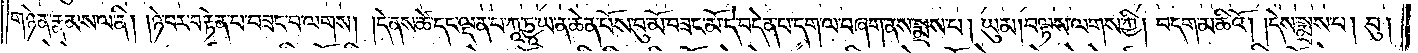གཉེན་རྣམས་ལ་ནི། །ཉེ་བར་བརྟེན་པ་བཟང་བ་ལགས། །དེ་ནས་ཚེ་དང་ལྡན་པ་ཀཱ་ཏྱཱ་ཡ་ན་ཆེན་པོས་བུ་མོ་བཟང་མོ་དེ་བདེན་པ་དག་ལ་བཞག་ནས་སྨྲས་པ། ཡུམ། བལྟས་ལགས་ཀྱི། བདག་མཆིའོ། །དེས་སྨྲས་པ། བུ།
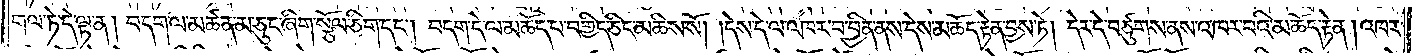གལ་ཏེ་དེ་ལྟ་ན། བདག་ལ་མཚན་མ་ཅུང་ཞིག་སྩོལ་ཅིག་དང༌། བདག་དེ་ལ་མཆོད་པ་བགྱིད་ཅིང་མཆིས་སོ། །དེས་དེ་ལ་འཁར་བ་བྱིན་ནས་དེས་མཆོད་རྟེན་བྱས་ཏེ། དེར་དེ་བཙུགས་ནས་འཁར་བའི་མཆོད་རྟེན། འཁར་
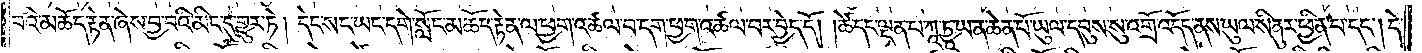བའི་མཆོད་རྟེན་ཞེས་བྱ་བའི་མིང་དུ་གྱུར་ཏེ། དེང་སང་ཡང་དགེ་སློང་མཆོད་རྟེན་ལ་ཕྱག་འཚལ་བ་དག་ཕྱག་འཚལ་བར་བྱེད་དོ། །ཚེ་དང་ལྡན་པ་ཀཱ་ཏྱཱ་ཡ་ན་ཆེན་པོ་ཡུལ་དབུས་སུ་འགྲོ་འདོད་ནས་ཡུལ་སི་ནུར་ཕྱིན་པ་དང༌། དེ་
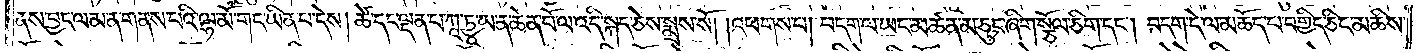ནས་བྱང་ལམ་ན་གནས་པའི་ལྷ་མོ་གང་ཡིན་པ་དེས། ཚེ་དང་ལྡན་པ་ཀཱ་ཏྱཱ་ཡ་ན་ཆེན་པོ་ལ་འདི་སྐད་ཅེས་སྨྲས་སོ། །འཕགས་པ། བདག་ལ་ཡང་མཚན་མ་ཅུང་ཞིག་སྩོལ་ཅིག་དང༌། བདག་དེ་ལ་མཆོད་པ་བགྱིད་ཅིང་མཆིས་
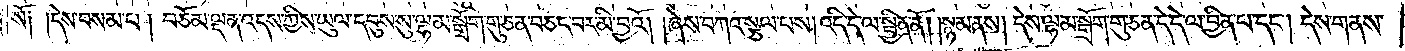སོ༑ །དེས་བསམ་པ། བཅོམ་ལྡན་འདས་ཀྱིས་ཡུལ་དབུས་སུ་ལྷམ་སྒྲོག་གུ་ཅན་བཅང་བར་མི་བྱའོ། །ཞེས་བཀའ་སྩལ་པས། འདི་དེ་ལ་སྦྱིན་ནོ། །སྙམ་ནས། དེས་ལྷམ་སྒྲོག་གུ་ཅན་དེ་དེ་ལ་བྱིན་པ་དང༌། དེས་གནས་
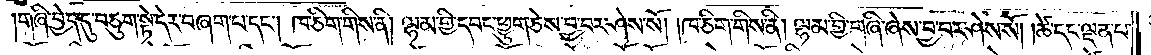།གཞི་བྱེད་དུ་བཅུག་སྟེ་དེར་བཞག་པ་དང༌། ཁ་ཅིག་གིས་ནི། ལྷམ་གྱི་དབང་ཕྱུག་ཅེས་བྱ་བར་ཤེས་སོ། ཁ་ཅིག་གིས་ནི། ལྷམ་གྱི་གཞི་ཞེས་བྱ་བར་ཤེས་སོ། །ཚེ་དང་ལྡན་པ་
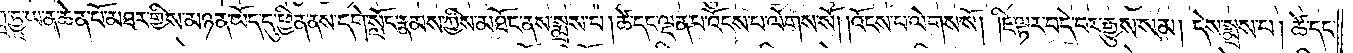ཀཱ་ཏྱཱ་ཡ་ན་ཆེན་པོ་མཐར་གྱིས་མཉན་ཡོད་དུ་ཕྱིན་ནས་དགེ་སློང་རྣམས་ཀྱིས་མཐོང་ནས་སྨྲས་པ། ཚེ་དང་ལྡན་པ་འོངས་པ་ལེགས་སོ་།འོངས་པ་ལེགས་སོ། །ཇི་ལྟར་བདེ་བར་རྒྱུས་སམ། དེས་སྨྲས་པ། ཚེ་དང་
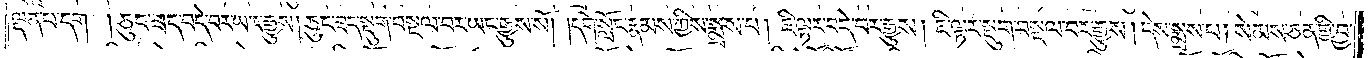ལྡན་པ་དག །ཅུང་ཟད་བདེ་བར་ཡང་རྒྱུས། ཅུང་ཟད་སྡུག་བསྔལ་བར་ཡང་རྒྱུས་སོ། །དགེ་སློང་རྣམས་ཀྱིས་སྨྲས་པ། ཇི་ལྟར་བདེ་བར་རྒྱུས། ཇི་ལྟར་སྡུག་བསྔལ་བར་རྒྱུས། དེས་སྨྲས་པ། སེམས་ཅན་གྱི་བྱ་
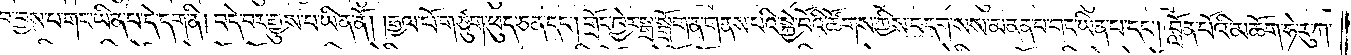བ་བྱས་པ་གང་ཡིན་པ་དེ་དག་ནི། བདེ་བར་རྒྱུས་པ་ཡིན་ནོ། །རྒྱལ་པོ་གཙུག་ཕུད་ཅན་དང༌། གྲོང་ཁྱེར་སྒྲ་སྒྲོག་ན་གནས་པའི་སྐྱེ་བོའི་ཚོགས་ཀྱིས་བདག་སས་མནན་པ་གང་ཡིན་པ་དང༌། བློན་པོའི་མཆོག་ཧེ་རུ་ཀ་
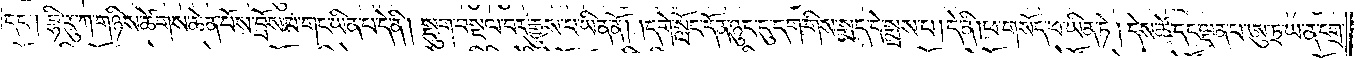དང༌། བྷི་རུ་ཀ་གཉིས་ཚེགས་ཆེན་པོས་བྲོས་པ་གང་ཡིན་པ་དེ་ནི། སྡུག་བསྔལ་བར་རྒྱུས་པ་ཡིན་ནོ། །དགེ་སློང་དོན་ཉུང་ངུ་དག་གིས་སྨད་དེ་སྨྲས་པ། དེ་ནི། ཕ་གསོད་པ་ཡིན་ཏེ། དེས་ཚེ་དང་ལྡན་པ་ཨུ་ཏྲ་ཡ་ན་དགྲ་
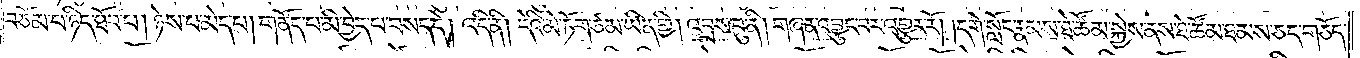བཅོམ་པ་ཉིད་ཐོབ་པ། ཉེས་པ་མེད་པ། གནོད་པ་མི་བྱེད་པ་བསད་དེ། འདི་ནི། དེའི་མེ་ཏོག་ཙམ་ཡིན་གྱི། འབྲས་བུ་ནི། གཞན་འབྱུང་བར་འགྱུར་རོ། །དགེ་སློང་རྣམས་ཐེ་ཚོམ་སྐྱེས་ནས་ཐེ་ཚོམ་ཐམས་ཅད་གཅོད་
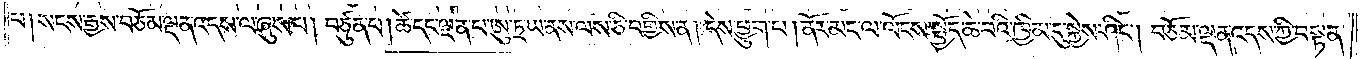པ། སངས་རྒྱས་བཅོམ་ལྡན་འདས་ལ་ཞུས་པ། བཙུན་པ། ཚེ་དང་ལྡན་པ་ཨུ་ཏྲ་ཡ་ནས་ལས་ཅི་བགྱིས་ན། དེས་ཕྱུག་པ། ནོར་མང་ལ་ལོངས་སྤྱོད་ཆེ་བའི་ཁྱིམ་དུ་སྐྱེས་ཤིང༌། བཅོམ་ལྡན་འདས་ཀྱི་བསྟན་
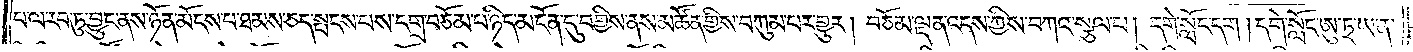པ་ལ་རབ་ཏུ་བྱུང་ནས་ཉོན་མོངས་པ་ཐམས་ཅད་སྤངས་པས་དགྲ་བཅོམ་པ་ཉིད་མངོན་དུ་བགྱིས་ནས་མཚོན་གྱིས་བཀུམ་པར་གྱུར། བཅོམ་ལྡན་འདས་ཀྱིས་བཀའ་སྩལ་པ། དགེ་སློང་དག །དགེ་སློང་ཨུ་ཏྲ་ཡ་ན་
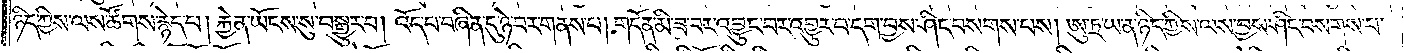ཉིད་ཀྱིས་ལས་ཚོགས་རྙེད་པ། རྐྱེན་ཡོངས་སུ་བསྒྱུར་བ། འོད་པ་བཞིན་དུ་ཉེ་བར་གནས་པ། གདོན་མི་ཟ་བར་འབྱུང་བར་འགྱུར་བ་དག་བྱས་ཤིང་བསགས་པས། ཨུ་ཏྲ་ཡ་ན་ཉིད་ཀྱིས་ལས་བྱས་ཤིང་བསགས་པ་
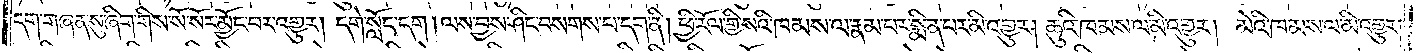དག་གཞན་སུ་ཞིག་གིས་སོ་སོར་མྱོང་བར་འགྱུར། དགེ་སློང་དག །ལས་བྱས་ཤིང་བསགས་པ་དག་ནི། ཕྱི་རོལ་གྱི་སའི་ཁམས་ལ་རྣམ་པར་སྨིན་པར་མི་འགྱུར། ཆུའི་ཁམས་ལ་མི་འགྱུར། མེའི་ཁམས་ལ་མི་འགྱུར།
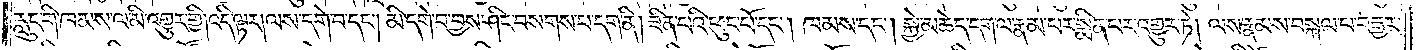རླུང་གི་ཁམས་ལ་མི་འགྱུར་གྱི། འདི་ལྟར། ལས་དགེ་བ་དང༌། མི་དགེ་བ་བྱས་ཤིང་བསགས་པ་དག་ནི། ཟིན་པའི་ཕུང་པོ་དང༌། ཁམས་དང༌། སྐྱེ་མཆེད་དག་ལ་རྣམ་པར་སྨིན་པར་འགྱུར་ཏེ། ལས་རྣམས་བསྐལ་པ་བརྒྱར་
